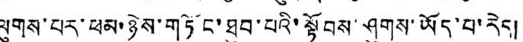ལུགས་པར་ཕམ་ཉེས་གཏོང་ཐུབ་པའི་སྟོབས་ཤུགས་ཡོད་པ་རེད།
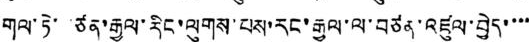གལ་ཏེ་ ་ཙན་རྒྱལ་རིང་ལུགས་པས་རང་རྒྱལ་ལ་བཙན་འཛུལ་བྱེད་་་་
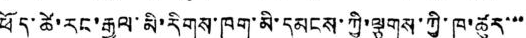ཕོད་ཚེ་རང་རྒྱལ་མི་རིགས་ཁག་མི་དམངས་ཀྱི་ལྕགས་ཀྱི་ཁུ་ཚུར་་་
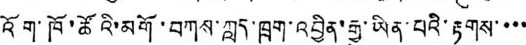འོག་ཁོ་ཚོའི་མགོ་བཀས་ཀླད་ཁྲག་འབྱིན་རྒྱུ་ཡིན་པའི་རྟགས་་་་
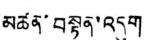མཚན་བསྟན་འདུག
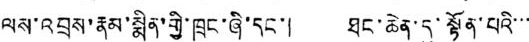ལས་འབྲས་རྣམ་སྨིན་གྱི་ཁྲང་ཞི་དང་། ཐང་ཆེན་དུ་སྟོན་པའི་་་
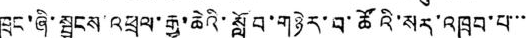ཁྲང་ཞི་སྦྱངས་འཕྲལ་རྒྱ་ཆེའི་སློབ་གཉེར་བ་ཚོའི་སར་འཁྲབ་པ་་་
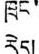རེད།
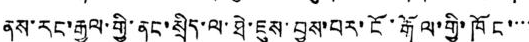ནས་རང་རྒྱལ་གྱི་ནང་སྲིད་ལ་ཐེ་ཇུས་བྱས་པར་ངོ་རྒོལ་གྱི་ཁོང་་་་
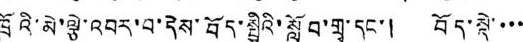ཁྲོའི་མེ་ལྕེ་འབར་བ་དེས་བོད་སྤྱིའི་སློབ་གྲྭ་དང་། བོད་སྡེ་་་་
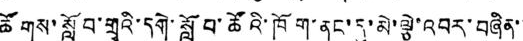ཚོགས་སློབ་གྲྭའི་དགེ་སློབ་ཚོའི་ཁོག་ནང་དུ་མེ་ལྕེ་འབར་བཞིན་་
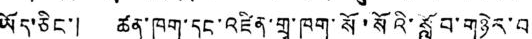ཡོད་ཅིང་། ཚན་ཁག་དང་འཛིན་གྲྭ་ཁག་སོ་སོའི་སློབ་གཉེར་བ
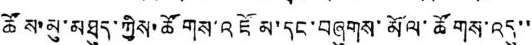ཚོས་མུ་མཐུད་ཀྱིས་ཚོགས་འཛོམ་དང་བཞུགས་མོལ་ཚོས་འདུ་་
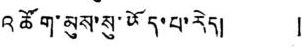འཚོག་མུས་སུ་ཡོད་པ་རེད།
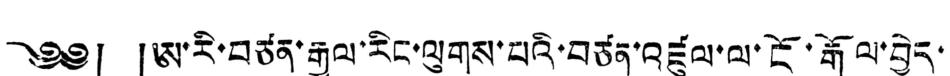༄༄། །ཨ་རི་བཙན་རྒྱལ་རིང་ལུགས་པའི་བཙན་འཛུལ་ལ་ངོ་རྒོལ་བྱེད་
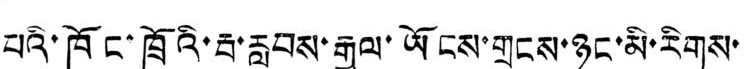པའི་ཁོང་ཁྲོའི་རྦ་རླབས་རྒྱལ་ཡོངས་གྲངས་ཉུང་མི་རིགས་
